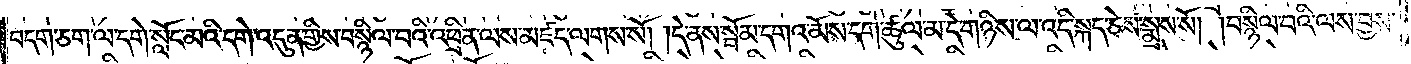བདག་ཅག་ལ་དགེ་སློང་མའི་དགེ་འདུན་གྱིས་བསྙིལ་བའི་འཕྲིན་ལས་མཛད་ལགས་སོ། །དེ་ནས་སྦོམ་དགའ་མོས་དགེ་ཚུལ་མ་དེ་གཉིས་ལ་འདི་སྐད་ཅེས་སྨྲས་སོ། །བསྙིལ་བའི་ལས་བྱས་
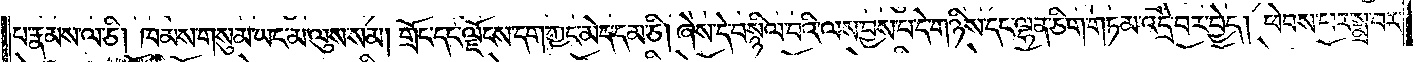པ་རྣམས་ལ་ཅི། ཁམས་གསུམ་ཡང་མ་ལུས་སམ། གྲོང་དང་ལྗོངས་དག་ཀྱང་མེད་དམ་ཅི། ཞེས་དེ་བསྙིལ་བའི་ལས་བྱས་པ་དེ་གཉིས་དང་ལྷན་ཅིག་གཏམ་འདྲེ་བར་བྱེད། ཕེབས་པར་སྨྲ་བར་
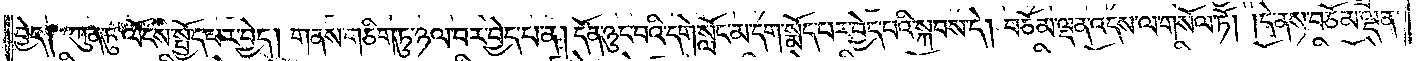བྱེད༑ ཀུན་ཏུ་ལོངས་སྤྱོད་པར་བྱེད། གནས་གཅིག་ཏུ་ཉལ་བར་བྱེད་པ་ན། དོན་ཉུང་བའི་དགེ་སློང་མ་དག་སྨོད་པར་བྱེད་པའི་སྐབས་དེ། བཅོམ་ལྡན་འདས་ལ་གསོལ་ཏོ། །དེ་ནས་བཅོམ་ལྡན་
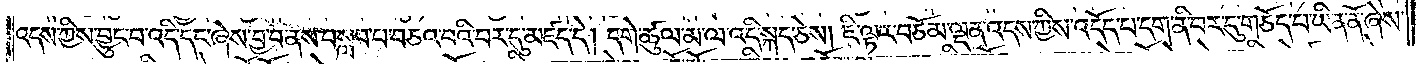འདས་ཀྱིས་བྱུང་བ་འདི་དང་ཞེས་བྱ་བ་ནས་བསླབ་པ་བཅའ་བའི་བར་དུ་མཛད་དེ། དགེ་ཚུལ་མ་ལ་འདི་སྐད་ཅེས། ཇི་ལྟར་བཅོམ་ལྡན་འདས་ཀྱིས་འདོད་པ་དག་ནི་བར་དུ་གཅོད་པ་ཡིན་ནོ་ཞེས་
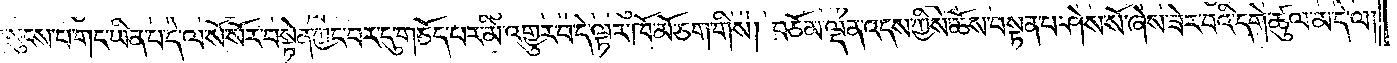གསུངས་པ་གང་ཡིན་པ་དེ་ལ་སོ་སོར་བསྟེན་ཀྱང་བར་དུ་གཅོད་པར་མི་འགྱུར་བ་དེ་ལྟར་ཁོ་མོ་ཅག་གིས། བཅོམ་ལྡན་འདས་ཀྱིས་ཆོས་བསྟན་པ་ཤེས་སོ་ཞེས་ཟེར་བའི་དགེ་ཚུལ་མ་དེ་ལ།
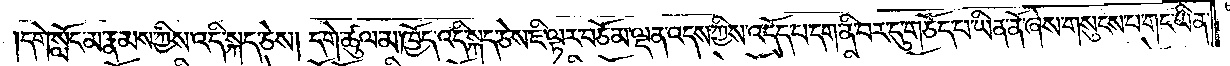དགེ་སློང་མ་རྣམས་ཀྱིས་འདི་སྐད་ཅེས། དགེ་ཚུལ་མ་ཁྱོད་འདི་སྐད་ཅེས་ཇི་ལྟར་བཅོམ་ལྡན་འདས་ཀྱིས་འདོད་པ་དག་ནི་བར་དུ་གཅོད་པ་ཡིན་ནོ་ཞེས་གསུངས་པ་གང་ཡིན་
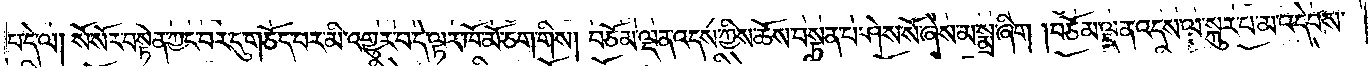པ་དེ་ལ། སོ་སོར་བསྟེན་ཀྱང་བར་དུ་གཅོད་པར་མི་འགྱུར་བ་དེ་ལྟར་ཁོ་མོ་ཅག་གིས། བཅོམ་ལྡན་འདས་ཀྱིས་ཆོས་བསྟན་པ་ཤེས་སོ་ཞེས་མ་སྨྲ་ཞིག །བཅོམ་ལྡན་འདས་ལ་སྐུར་པ་མ་འདེབས་
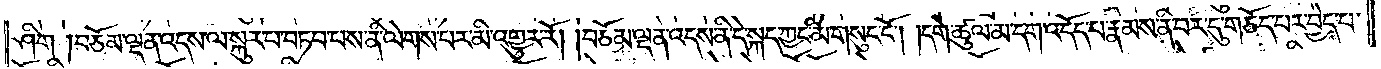ཤིག་༑བཅོམ་ལྡན་འདས་ལ་སྐུར་པ་བཏབ་པས་ནི་ལེགས་པར་མི་འགྱུར་རོ། །བཅོམ་ལྡན་འདས་ནི་དེ་སྐད་ཀྱང་མི་གསུང་ངོ༌། །དགེ་ཚུལ་མ་དག་འདོད་པ་རྣམས་ནི་བར་དུ་གཅོད་པར་བྱེད་པ་
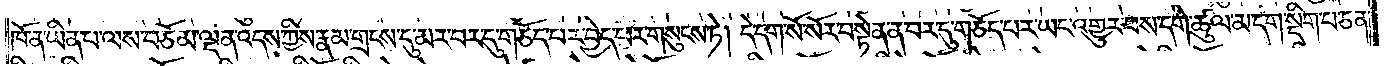ཁོ་ན་ཡིན་པ་ལས་བཅོམ་ལྡན་འདས་ཀྱིས་རྣམ་གྲངས་དུ་མར་བར་དུ་གཅོད་པར་བྱེད་པར་གསུངས་ཏེ། དེ་དག་སོ་སོར་བསྟེན་ན་བར་དུ་གཅོད་པར་ཡང་འགྱུར་བས་དགེ་ཚུལ་མ་དག་སྡིག་པ་ཅན་
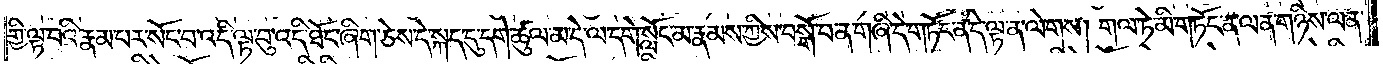གྱི་ལྟ་བའི་རྣམ་པར་སོང་བ་འདི་ལྟ་བུ་འདི་ཐོང་ཞིག་ཅེས་དེ་སྐད་དུ་དགེ་ཚུལ་མ་དེ་ལ་དགེ་སློང་མ་རྣམས་ཀྱིས་བསྒོ་བ་ན་གཞི་དེ་གཏོང་ན་དེ་ལྟ་ན་ལེགས། གལ་ཏེ་མི་གཏོང་ན་ལན་གཉིས་ལན་
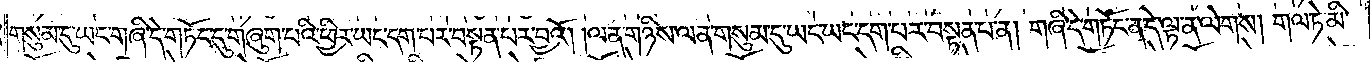གསུམ་དུ་ཡང་གཞི་དེ་གཏོང་དུ་གཞུག་པའི་ཕྱིར་ཡང་དག་པར་བསྟན་པར་བྱའོ། །ལན་གཉིས་ལན་གསུམ་དུ་ཡང་ཡང་དག་པར་བསྟན་པ་ན། གཞི་དེ་གཏོང་ན་དེ་ལྟ་ན་ལེགས། གལ་ཏེ་མི་
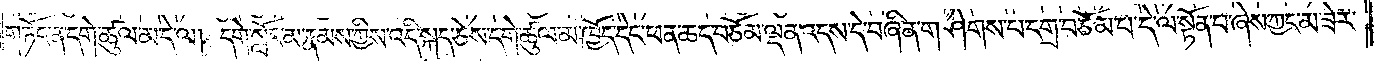གཏོང་ན་དགེ་ཚུལ་མ་དེ་ལ། དགེ་སློང་མ་རྣམས་ཀྱིས་འདི་སྐད་ཅེས་དགེ་ཚུལ་མ་ཁྱོད་དེང་ཕན་ཆད་བཅོམ་ལྡན་འདས་དེ་བཞིན་གཤེགས་པ་དགྲ་བཅོམ་པ་དེ་ལ་སྟོན་པ་ཞེས་ཀྱང་མ་ཟེར་
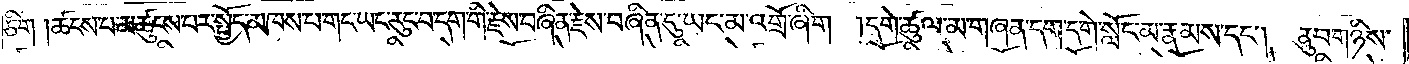ཅིག །ཚངས་པ་མཚུངས་པར་སྤྱོད་མཁས་པ་གང་ཡང་རུང་བ་དག་གི་རྗེས་བཞིན་རྗེས་བཞིན་དུ་ཡང་མ་འགྲོ་ཞིག །དགེ་ཚུལ་མ་གཞན་དག་དགེ་སློང་མ་རྣམས་དང༌། ནུབ་གཉིས་
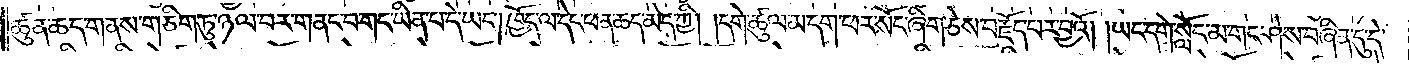ཚུན་ཆད་གནས་གཅིག་ཏུ་ཉལ་བར་གནང་བ་གང་ཡིན་པ་དེ་ཡང༌། ཁྱོད་ལ་དེང་ཕན་ཆད་མེད་ཀྱི། །དགེ་ཚུལ་མ་དག་ཕར་སོང་ཞིག་ཅེས་བརྗོད་པར་བྱའོ། །ཡང་དགེ་སློང་མ་གང་ཤེས་བཞིན་དུ་དེ་
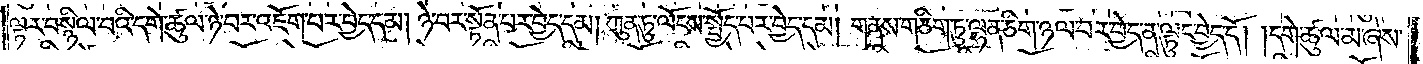ལྟར་བསྙིལ་བའི་དགེ་ཚུལ་ཉེ་བར་འཇོག་པར་བྱེད་དམ། ཉེ་བར་སྟོན་པར་བྱེད་དམ། ཀུན་ཏུ་ལོངས་སྤྱོད་པར་བྱེད་དམ། གནས་གཅིག་ཏུ་ལྷན་ཅིག་ཉལ་བར་བྱེད་ན་ལྟུང་བྱེད་དོ། །དགེ་ཚུལ་མ་ཞེས་
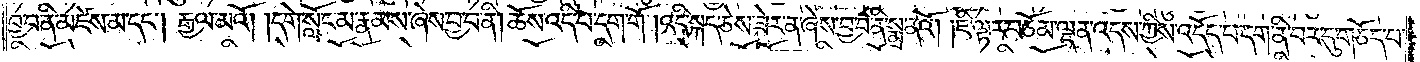བྱ་བ་ནི་མཛེས་མ་དང༌། རྒྱལ་མའོ། །དགེ་སློང་མ་རྣམས་ཞེས་བྱ་བ་ནི། ཆོས་འདི་པ་དག་གོ །འདི་སྐད་ཅེས་ཟེར་ན་ཞེས་བྱ་བ་ནི་སྨྲ་ནའོ། །ཇི་ལྟར་བཅོམ་ལྡན་འདས་ཀྱིས་འདོད་པ་དག་ནི་བར་དུ་གཅོད་པ་
